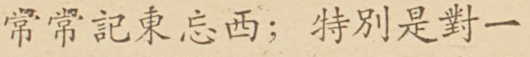常常記東忘西；特別是對一
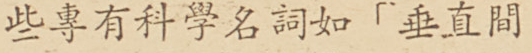些專有科學名詞如「垂直間
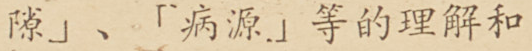隙」、「病源」等的理解和
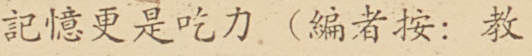記憶更是吃力（編者按：教
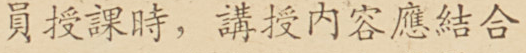員授課時，講授內容應結合
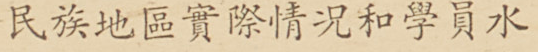民族地區實際情況和學員水
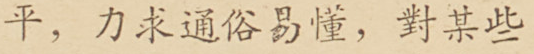平，力求通俗易懂，對某些
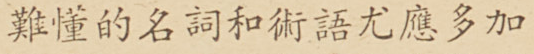難懂的名詞和術語尤應多加
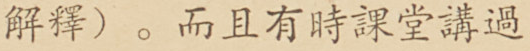解釋）。而且有時課堂講過
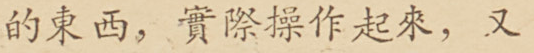的東西，實際操作起來，又
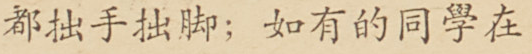都拙手拙脚；如有的同學在
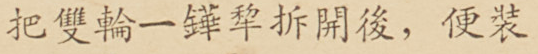把雙輪一鏵犂拆開後，便裝
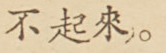不起來。
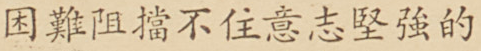困難阻擋不住意志堅強的
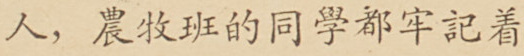人，農牧班的同學都牢記着
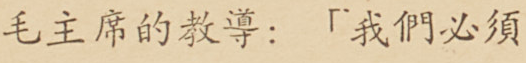毛主席的教導：「我們必須
